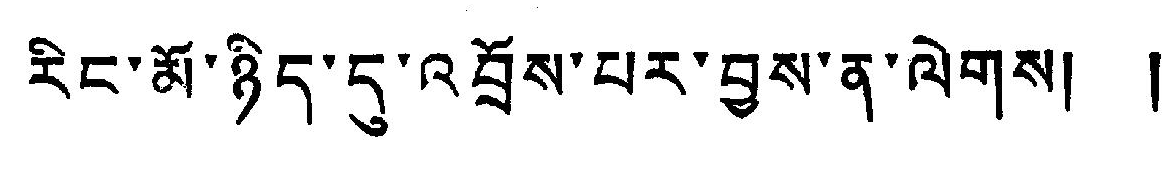རིང་མོ་ཉིད་དུ་འབྲོས་པར་བྱས་ན་ལེགས། །
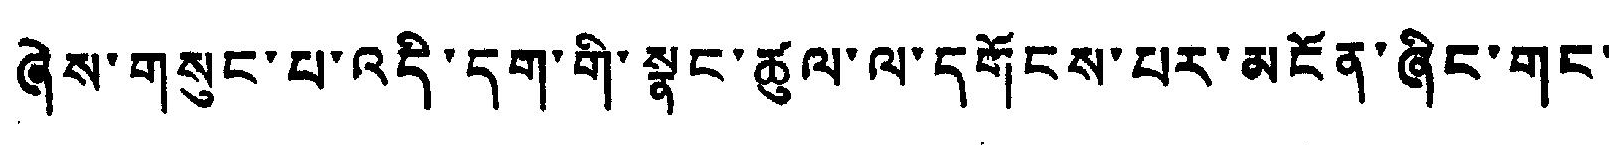ཞེས་གསུང་པ་འདི་དག་གི་སྣང་ཚུལ་ལ་དགོངས་པར་མངོན་ཞིང་གང་་
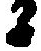2
